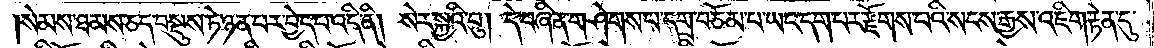སེམས་ཐམས་ཅད་བསྡུས་ཏེ་ཉན་པར་བྱེད་པ་འདི་ནི། སེར་སྐྱའི་བུ། དེ་བཞིན་གཤེགས་པ་དགྲ་བཅོམ་པ་ཡང་དག་པར་རྫོགས་པའི་སངས་རྒྱས་འཇིག་རྟེན་དུ་
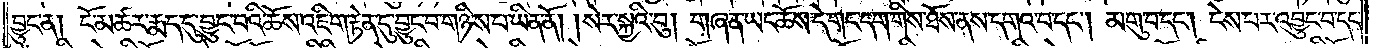བྱུང་ན། ངོ་མཚར་རྨད་དུ་བྱུང་བའི་ཆོས་འཇིག་རྟེན་དུ་བྱུང་བ་གཉིས་པ་ཡིན་ནོ། །སེར་སྐྱའི་བུ། གཞན་ཡང་ཆོས་དེ་གང་དག་གིས་ཐོས་ནས་དགའ་བ་དང༌། མགུ་བ་དང༌། ངེས་པར་འབྱུང་བ་དང་
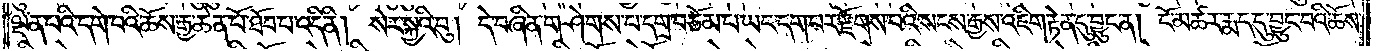ལྡན་པའི་དགེ་བའི་ཆོས་རྒྱ་ཆེན་པོ་ཐོབ་པ་འདི་ནི། སེར་སྐྱའི་བུ། དེ་བཞིན་གཤེགས་པ་དགྲ་བཅོམ་པ་ཡང་དག་པར་རྫོགས་པའི་སངས་རྒྱས་འཇིག་རྟེན་དུ་བྱུང་ན། ངོ་མཚར་རྨད་དུ་བྱུང་བའི་ཆོས་
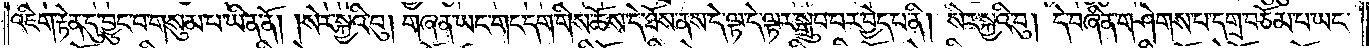འཇིག་རྟེན་དུ་བྱུང་བ་གསུམ་པ་ཡིན་ནོ། །སེར་སྐྱའི་བུ། གཞན་ཡང་གང་དག་གིས་ཆོས་དེ་ཐོས་ནས་དེ་ལྟ་དེ་ལྟར་སྒྲུབ་པར་བྱེད་པ་ནི། སེར་སྐྱའི་བུ། དེ་བཞིན་གཤེགས་པ་དགྲ་བཅོམ་པ་ཡང་
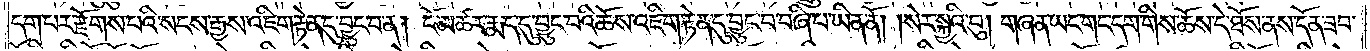དག་པར་རྫོགས་པའི་སངས་རྒྱས་འཇིག་རྟེན་དུ་བྱུང་བ་ན། ངོ་མཚར་རྨད་དུ་བྱུང་བའི་ཆོས་འཇིག་རྟེན་དུ་བྱུང་བ་བཞི་པ་ཡིན་ནོ། །སེར་སྐྱའི་བུ། གཞན་ཡང་གང་དག་གིས་ཆོས་དེ་ཐོས་ནས་དོན་ཟབ་
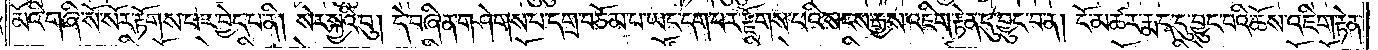མོའི་གཞི་སོ་སོར་རྟོགས་པར་བྱེད་པ་ནི། སེར་སྐྱའི་བུ། དེ་བཞིན་གཤེགས་པ་དགྲ་བཅོམ་པ་ཡང་དག་པར་རྫོགས་པའི་སངས་རྒྱས་འཇིག་རྟེན་དུ་བྱུང་བ་ན། ངོ་མཚར་རྨད་དུ་བྱུང་བའི་ཆོས་འཇིག་རྟེན་
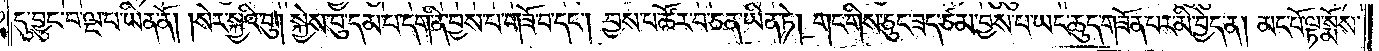དུ་བྱུང་བ་ལྔ་པ་ཡིན་ནོ། །སེར་སྐྱའི་བུ། སྐྱེས་བུ་དམ་པ་དག་ནི་བྱས་པ་གཟོ་བ་དང༌། བྱས་པ་ཚོར་བ་ཅན་ཡིན་ཏེ། གང་གིས་ཅུང་ཟད་ཙམ་བྱས་པ་ཡང་ཆུད་གཟོན་པར་མི་བྱེད་ན། མང་པོ་ལྟ་སྨོས་
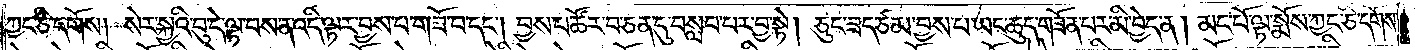ཀྱང་ཅི་དགོས། སེར་སྐྱའི་བུ་དེ་ལྟ་བས་ན་འདི་ལྟར་བྱས་པ་གཟོ་བ་དང༌། བྱས་པ་ཚོར་བ་ཅན་དུ་བསླབ་པར་བྱ་སྟེ། ཅུང་ཟད་ཙམ་བྱས་པ་ཡང་ཆུད་གཟོན་པར་མི་བྱེད་ན། མང་པོ་ལྟ་སྨོས་ཀྱང་ཅི་དགོས་
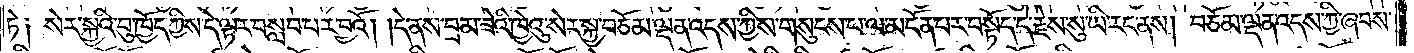ཏེ༑ སེར་སྐྱའི་བུ་ཁྱོད་ཀྱིས་དེ་ལྟར་བསླབ་པར་བྱའོ། །དེ་ནས་བྲམ་ཟེའི་ཁྱེའུ་སེར་སྐྱ་བཅོམ་ལྡན་འདས་ཀྱིས་གསུངས་པ་ལ་མངོན་པར་བསྟོད་དེ་རྗེས་སུ་ཡི་རང་ནས། བཅོམ་ལྡན་འདས་ཀྱི་ཞབས་
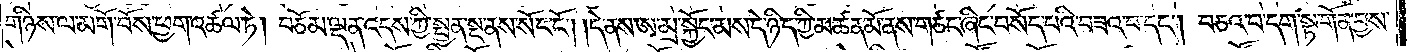གཉིས་ལ་མགོ་བོས་ཕྱག་འཚལ་ཏེ། བཅོམ་ལྡན་འདས་ཀྱི་སྤྱན་སྔ་ནས་སོང་ངོ༌། །དེ་ནས་ཨ་མྲ་སྐྱོང་མས་དེ་ཉིད་ཀྱི་མཚན་མོ་ནས་གཙང་ཞིང་བསོད་པའི་བཟའ་བ་དང༌། བཅའ་བ་དག་སྟ་གོན་བྱས་
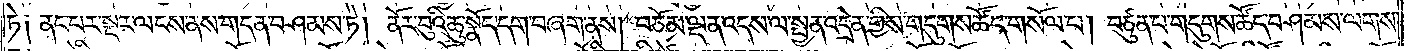ཏེ༑ ནང་པར་སྔར་ལངས་ནས་གདན་བཤམས་ཏེ། ནོར་བུའི་ཆུ་སྣོད་དག་བཞག་ནས། བཅོམ་ལྡན་འདས་ལ་སྤྱན་འདྲེན་གྱིས་གདུགས་ཚོད་གསོལ་པ། བཙུན་པ་གདུགས་ཚོད་བཤམས་ལགས་
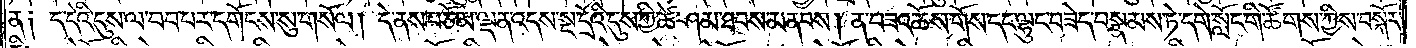ན༑ ད་དེའི་དུས་ལ་བབ་པར་དགོངས་སུ་གསོལ། དེ་ནས་བཅོམ་ལྡན་འདས་སྔ་དྲོའི་དུས་ཀྱི་ཚེ་ཤམ་ཐབས་མནབས། ན་བཟའ་ཆོས་གོས་དང་ལྷུང་བཟེད་བསྣམས་ཏེ་དགེ་སློང་གི་ཚོགས་ཀྱིས་བསྐོར་
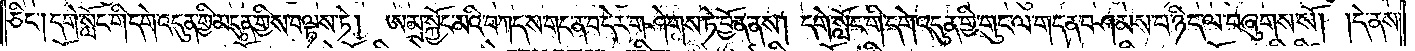ཅིང༌། དགེ་སློང་གི་དགེ་འདུན་གྱི་མདུན་གྱིས་བལྟས་ཏེ། ཨ་མྲ་སྐྱོང་མའི་བཀད་ས་གང་ན་བ་དེར་གཤེགས་ཏེ་བྱོན་ནས། དགེ་སློང་གི་དགེ་འདུན་གྱི་གུང་ལ་གདན་བཤམས་པ་ཉིད་ལ་བཞུགས་སོ། །དེ་ནས་
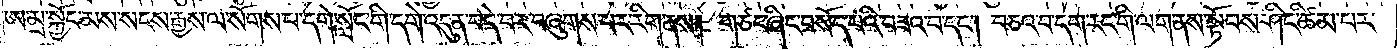ཨ་མྲ་སྐྱོང་མས་སངས་རྒྱས་ལ་སོགས་པ་དགེ་སློང་གི་དགེ་འདུན་བདེ་བར་བཞུགས་པར་རིག་ནས། གཙང་ཞིང་བསོད་པའི་བཟའ་བ་དང༌། བཅའ་བ་དག་རང་གི་ལག་ནས་སྟོབས་ཤིང་ཚིམ་པར་
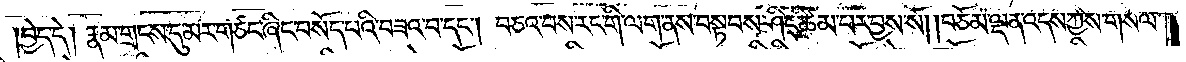བྱེད་དེ། རྣམ་གྲངས་དུ་མར་གཙང་ཞིང་བསོད་པའི་བཟའ་བ་དང༌། བཅའ་བས་རང་གི་ལག་ནས་བསྟབས་ཤིང་ཚིམ་པར་བྱས་སོ། །བཅོམ་ལྡན་འདས་ཀྱིས་གསོལ་
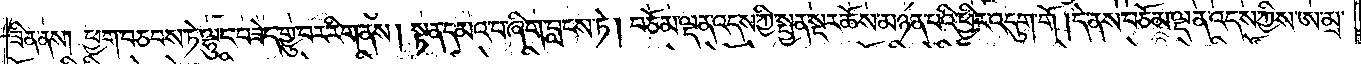ཟིན་ནས། ཕྱག་བཅབས་ཏེ་ལྷུང་བཟེད་གྱུར་བར་རིག་ནས། སྟན་དམའ་བ་ཞིག་བླངས་ཏེ། བཅོམ་ལྡན་འདས་ཀྱི་སྤྱན་སྔར་ཆོས་མཉན་པའི་ཕྱིར་འདུག་གོ །དེ་ནས་བཅོམ་ལྡན་འདས་ཀྱིས་ཨ་མྲ་
